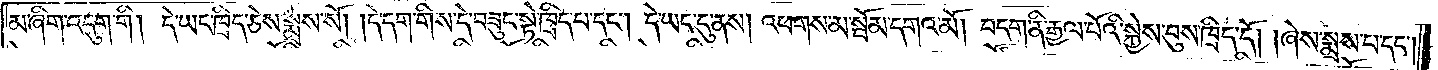མ་ཞིག་འདུག་གི། དེ་ཡང་ཁྲིད་ཅེས་སྨྲས་སོ། །དེ་དག་གིས་དེ་བཟུང་སྟེ་ཁྲིད་པ་དང༌། དེ་ཡང་དུ་ནས། འཕགས་མ་སྦོམ་དགའ་མོ། བདག་ནི་རྒྱལ་པོའི་སྐྱེས་བུས་ཁྲིད་དོ། །ཞེས་སྨྲས་པ་དང༌།
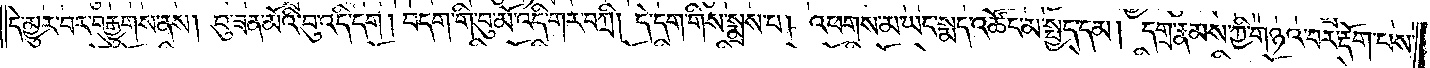དེ་མྱུར་བར་བརྒྱུགས་ནས། བུ་ཟན་མོའི་བུ་འདི་དག །བདག་གི་བུ་མོ་འདི་གར་བཀྲི། དེ་དག་གིས་སྨྲས་པ། འཕགས་མ་ཡང་སྨད་འཚོང་མ་སྤྱད་དམ། དགྲ་རྣམས་ཀྱི་གཉའ་བར་རྡོག་པས་
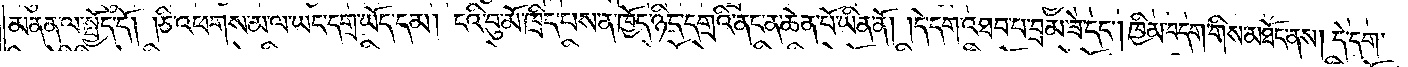མནན་ལ་སྤྱོད་དོ། །ཅི་འཕགས་མ་ལ་ཡང་དགྲ་ཡོད་དམ། ངའི་བུ་མོ་ཁྲིད་པས་ན་ཁྱོད་ཉིད་དགྲའི་ནང་ན་ཆེན་པོ་ཡིན་ནོ། །དེ་དག་འཐབ་པ་བྲམ་ཟེ་དང༌། ཁྱིམ་བདག་གིས་མཐོང་ནས། དེ་དག་
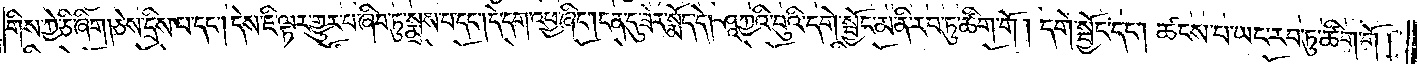གིས་ཀྱེ་ཅི་ཞིག །ཅེས་དྲིས་པ་དང༌། དེས་ཇི་ལྟར་གྱུར་པ་ཞིབ་ཏུ་སྨྲས་པ་དང༌། དེ་དག་འཕྱ་ཞིང༌། ངན་དུ་ཟེར་སྨོད་དེ། ཤཱཀྱའི་བུའི་དགེ་སྦྱོང་མ་ནི་རབ་ཏུ་ཚིག་གོ །དགེ་སྦྱོང་དང༌། ཚངས་པ་ཡང་རབ་ཏུ་ཚིག་གོ །
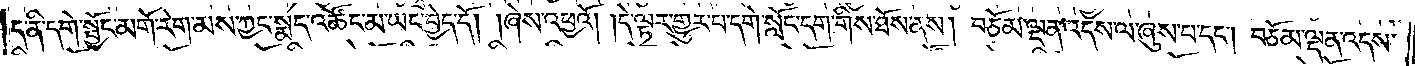ད་ནི་དགེ་སྦྱོང་མགོ་རེག་མས་ཀྱང་སྨད་འཚོང་མ་ཡང་བྱེད་དོ། །ཞེས་འཕྱའོ། །དེ་ལྟར་གྱུར་པ་དགེ་སློང་དག་གིས་ཐོས་ནས། བཅོམ་ལྡན་འདས་ལ་ཞུས་པ་དང༌། བཅོམ་ལྡན་འདས་
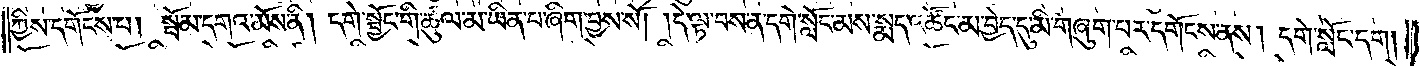ཀྱིས་དགོངས་པ། སྦོམ་དགའ་མོས་ནི། དགེ་སྦྱོང་གི་ཚུལ་མ་ཡིན་པ་ཞིག་བྱས་སོ། །དེ་ལྟ་བས་ན་དགེ་སློང་མས་སྨད་འཚོང་མ་བྱེད་དུ་མི་གཞུག་པར་དགོངས་ནས། དགེ་སློང་དག །
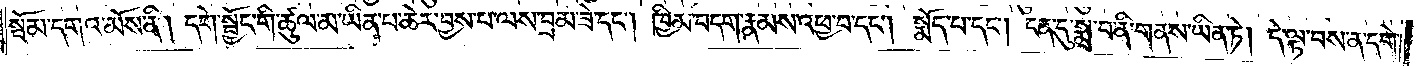སྦོམ་དགའ་མོས་ནི། དགེ་སྦྱོང་གི་ཚུལ་མ་ཡིན་པ་ཆེར་བྱས་པ་ལས་བྲམ་ཟེ་དང༌། ཁྱིམ་བདག་རྣམས་འཕྱ་བ་དང༌། སྨོད་པ་དང༌། ངན་དུ་སྨྲ་བ་ནི་གནས་ཡིན་ཏེ། དེ་ལྟ་བས་ན་དགེ་
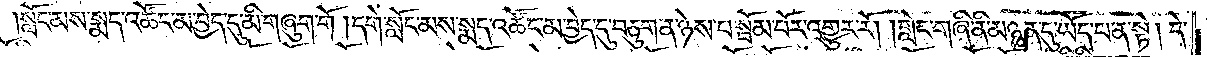སློང་མས་སྨད་འཚོང་མ་བྱེད་དུ་མི་གཞུག་གོ །དགེ་སློང་མས་སྨད་འཚོང་མ་བྱེད་དུ་བཅུག་ན་ཉེས་པ་སྦོམ་པོར་འགྱུར་རོ། །གླེང་གཞི་ནི་མཉན་དུ་ཡོད་པ་ན་སྟེ། དེ་
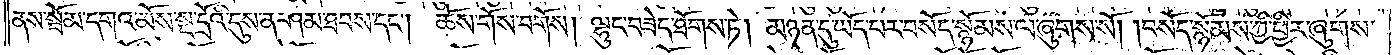ནས་སྦོམ་དགའ་མོས་སྔ་དྲོའི་དུས་ན་ཤམ་ཐབས་དང༌། ཆོས་གོས་བགོས། །ལྷུང་བཟེད་ཐོགས་ཏེ། མཉན་དུ་ཡོད་པར་བསོད་སྙོམས་ལ་ཞུགས་སོ། །བསོད་སྙོམས་ཀྱི་ཕྱིར་ཞུགས་
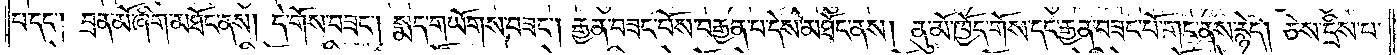པ་དང༌། བྲན་མོ་ཞིག་མཐོང་ནས། དེ་གོས་བཟང༌། སྨད་གཡོགས་བཟང༌། རྒྱན་བཟང་པོས་བརྒྱན་པ་དེས་མཐོང་ནས། ནུ་མོ་ཁྱོད་གོས་དང་རྒྱན་བཟང་པོ་གང་ནས་རྙེད། ཅེས་དྲིས་པ་
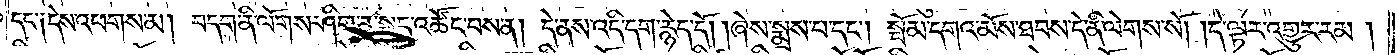དང༌། དེས་འཕགས་མ། བདག་ནི་ལོགས་ཤིག་ན་སྨད་འཚོང་བས་ན། དེ་ནས་འདི་དག་རྙེད་དོ། །ཞེས་སྨྲས་པ་དང༌། སྦོམ་དགའ་མོས་ཐབས་དེ་ནི་ལེགས་སོ། །དེ་ལྟར་འགྱུར་རམ།
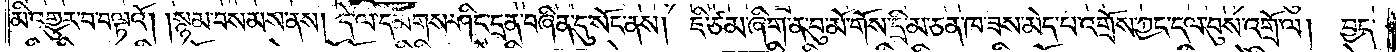མི་འགྱུར་བ་བལྟའོ། །སྙམ་བསམས་ནས། དེ་ལ་དམིགས་ཤིང་དྲན་བཞིན་དུ་སོང་ནས། ཇི་ཙམ་ཞིག་ན་བུ་མོ་གོས་དྲི་མ་ཅན་ཁ་ཟས་མེད་པ་འགྲོས་ཀྱང་དལ་བུས་འགྲོ་ལ། བྱད་
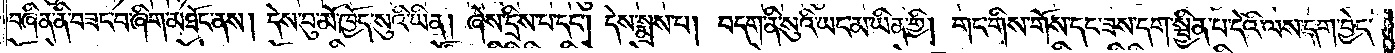བཞིན་ནི་བཟང་བ་ཞིག་མཐོང་ནས། དེས་བུ་མོ་ཁྱོད་སུའི་ཡིན། ཞེས་དྲིས་པ་དང༌། དེས་སྨྲས་པ། བདག་ནི་སུའི་ཡང་མ་ཡིན་གྱི། གང་གིས་གོས་དང་ཟས་དག་སྦྱིན་པ་དེའི་ལས་དག་བྱེད་
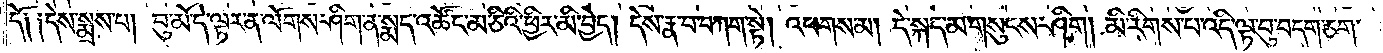དོ༑ ༑དེས་སྨྲས་པ། བུ་མོ་དེ་ལྟར་ན་ལོགས་ཤིག་ན་སྨད་འཚོང་མ་ཅིའི་ཕྱིར་མི་བྱེད། དེས་རྣ་བ་བཀག་སྟེ། འཕགས་མ། དེ་སྐད་མ་གསུངས་ཤིག། མི་རིགས་པ་འདི་ལྟ་བུ་བདག་ཅག་
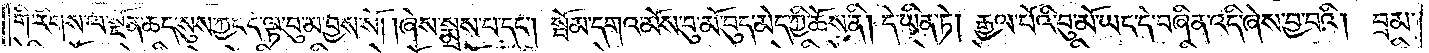གི་རིགས་ལ་སྔོན་ཆད་སུས་ཀྱང་དེ་ལྟ་བུ་མ་བྱས་སོ། །ཞེས་སྨྲས་པ་དང༌། སྦོམ་དགའ་མོས་བུ་མོ་བུད་མེད་ཀྱི་ཆོས་ནི། དེ་ཡིན་ཏེ། རྒྱལ་པོའི་བུ་མོ་ཡང་དེ་བཞིན་འདི་ཞེས་བྱ་བའི། བྲམ།
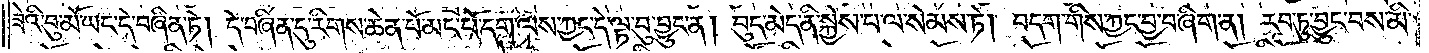ཟེའི་བུ་མོ་ཡང་དེ་བཞིན་ཏེ། དེ་བཞིན་དུ་རིགས་ཆེན་པོ་མང་པོ་དག་ལས་ཀྱང་དེ་ལྟ་བུ་བྱུང་ན། བུད་མེད་ནི་སྐྱེས་པ་ལ་སེམས་ཏེ། བདག་གིས་ཀྱང་བྱ་བ་ཞིག་ན། རབ་ཏུ་བྱུང་བས་མི་
